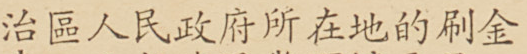治區人民政府所在地的刷金
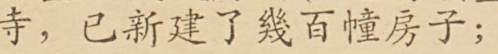寺，已新建了幾百幢房子；
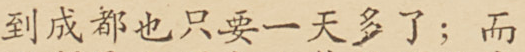到成都也只要一天多了；而
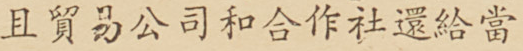且貿易公司和合作社還給當
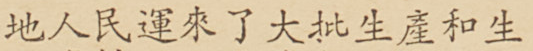地人民運來了大批生產和生
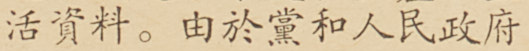活資料。由於黨和人民政府
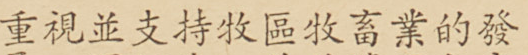重視並支持牧區畜牧業的發
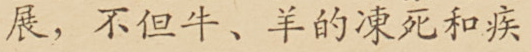展，不但牛、羊的凍死和疾
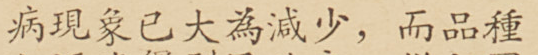病現象已大為減少，而品種
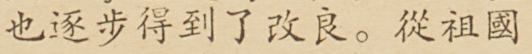也逐步得到了改良。從祖國
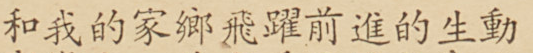和我的家郷飛躍前進的生動
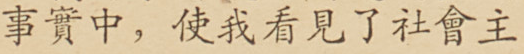事實中，使我看見了社會主
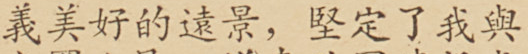義美好的遠景，堅定了我與
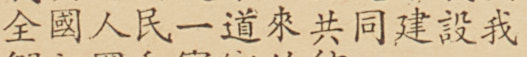全國人民一道來共同建設我
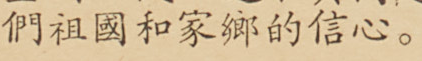們祖國和家鄉的信心。
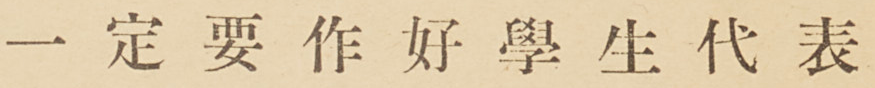一 定 要 作 好 學 生 代 表
